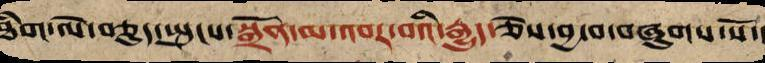ཐིག་ལེ་བཅུད་སྤུངས་སྒྲོན་མ་འབར་བའི་རྒྱུད་ཅེས་བྱ་བ་བཞུགས་སོ་།
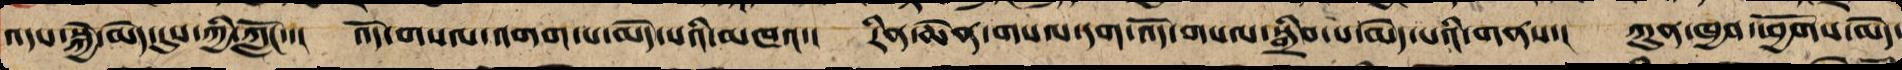འདས་སྐྱེ་མེད་དུས་ཀྱི་ཀློང་་། འོད་གསལ་འགག་པ་མེད་པའི་མཁའ་། རིན་ཆེན་གསལ་དག་འོད་གསལ་སྒྲིབ་པ་མེད་པའི་གནས་། ཀུན་ཁྱབ་ཕྱོགས་མེད་
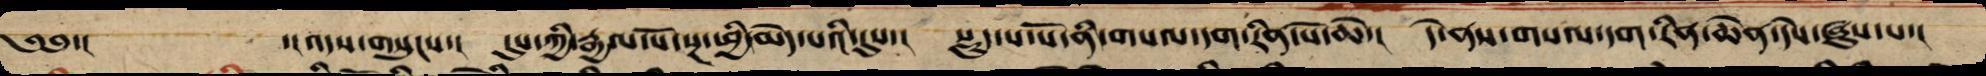༄༅་། ་།འདས་གསུངས་། དུས་ཀྱི་རྒྱལ་པོ་སྔ་ཕྱི་མེད་པའི་དུས་། སྡུད་པ་པོ་ནི་གསལ་དག་རིན་པོ་ཆེ་། དེ་ནས་གསལ་དག་རིན་ཆེན་དེས་ཞུས་པ་།
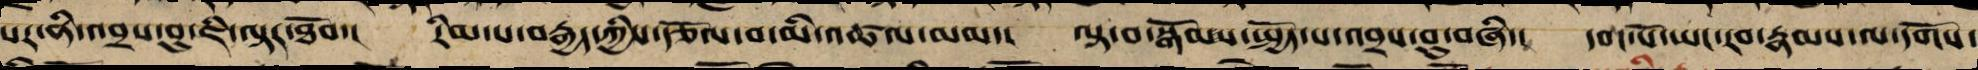པར་ནི་འབྲས་བུ་ཇི་ལྟར་ཐོབ་། རིམ་པ་བརྒྱད་ཀྱིས་རྩོལ་བ་མི་འཚལ་ལམ་། ལྟ་བ་སྒོམས་སྤྱོད་པ་འབྲས་བུ་བཞི་། དབང་པོ་ཡང་རབ་རྣམས་ལ་དགོས་
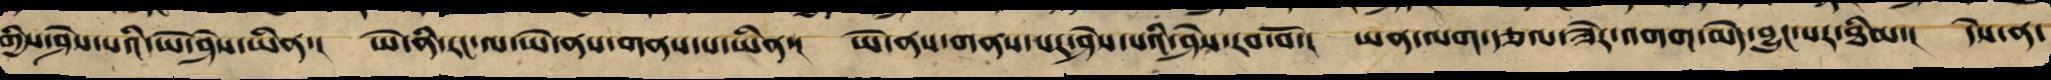གྱིས་ཤེས་པས་ཡེ་ཤེས་ཡིན་། ཡེ་ནི་རང་ལ་ཡེ་ནས་གནས་པ་ཡིན་། ཡེ་ནས་གནས་པར་ཤེས་པས་ཤེས་རབ་བོ་། ཡན་ལག་རྩལ་ཟེར་འགག་མེད་བྱུང་སར་ཐིམ་། དེས་ན་
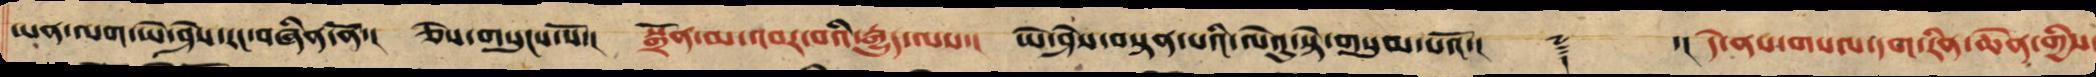ཡན་ལག་ཡེ་ཤེས་རང་བཞིན་ནོ་། ཅེས་གསུངས་སོ་། སྒྲོན་མ་འབར་བའི་རྒྱུད་ལས་། ཡེ་ཤེས་བསྟན་པའི་ལེའུ་སྟེ་གསུམ་པའོ་།། ༈ ་།། དེ་ནས་གསལ་དག་རིན་ཆེན་གྱིས་
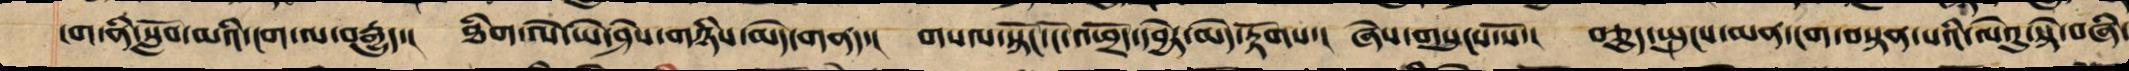ངག་ནི་སློབ་མའི་ངག་ལ་བརྒྱུད་། ཐིག་ལེ་ཡེ་ཤེས་གཉིས་མེད་གནད་། གསལ་སྟོང་ངོ་འཕྲོད་དབྱེར་མེད་རྟོགས་། ཞེས་གསུངས་སོ་། བཅུད་སྤུངས་མན་ངག་བསྟན་པའི་ལེའུ་སྟེ་བཞི་
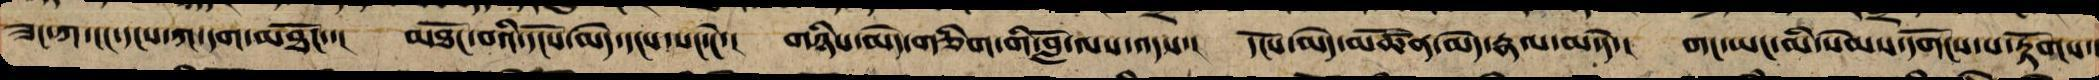ཟང་ཀ་ངང་དངས་ཀ་དག་མཐོང་་། མཐོང་བའི་དངོས་མེད་དངས་སང་ངེ་། གཉིས་མེད་གཅིག་གི་བློ་ལས་འདས་། དངོས་མེད་མཚོན་མེད་རྣལ་མ་དེ་། གང་ཡང་མི་སེམས་དགོངས་པ་རྟོགས་།
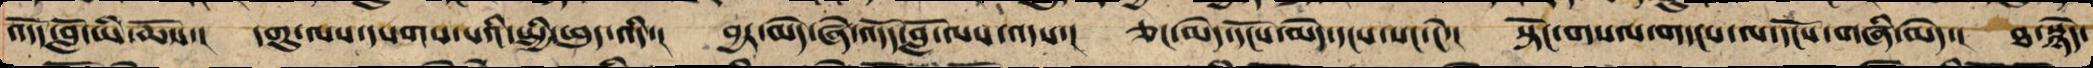འདོད་བློ་ཡི་ཆོས་། དགུ་ལས་དཔག་པའི་སྤྱི་ཕུད་འདི་། བྱར་མེད་ཞེ་འདོད་བློ་ལས་འདས་། ཅང་མེད་དངོས་མེད་དངས་སང་ངེ་། སྟོང་གསལ་གདངས་ལ་དངོས་གཞི་མེད་། ཐ་སྙེད་
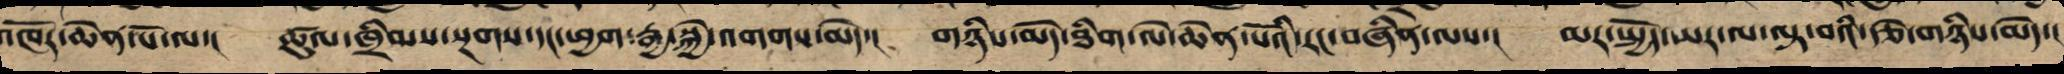འཁོར་ཆེན་པོ་ལ་། ཚུལ་ཁྲིམས་སྔགས་དང་ཕྱག་རྒྱ་སྐྱེ་འགག་མེད་། གཉིས་མེད་ཐིག་ལེ་ཆེན་པོའི་རང་བཞིན་ལས་། མར་སྤྱོད་ཡར་ལ་བལྟ་བའི་རྩེ་གཉིས་མེ་།
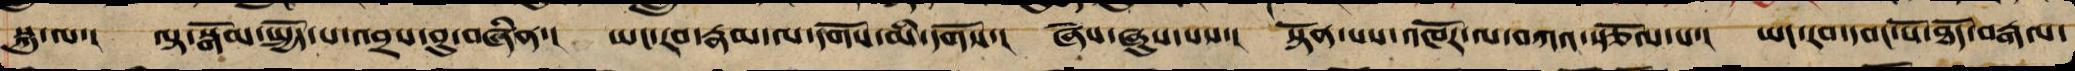སྐུ་ལ་། ལྟ་སྒོམ་སྤྱོད་པ་འབྲས་བུ་བཞིན་། ཡང་རབ་རྣམས་ལ་དགོས་མི་དགོས་། ཞེས་ཞུས་པས་། སྟོན་པས་འཁོར་ལ་བཀའ་སྩོལ་པ་། ཡང་རབ་དབང་པོ་ཐོད་བརྒལ་
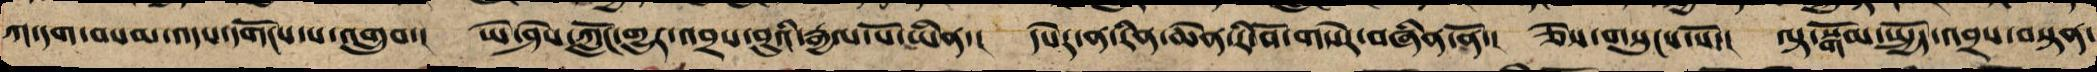ཀ་དག་བསམ་འདས་དགོངས་པ་འགྲུབ་། ཡེ་ཤེས་ཀློང་གྱུར་འབྲས་བུའི་རྒྱལ་པོ་ཡིན་། དཔེར་ན་རིན་ཆེན་རི་བོ་གསེར་བཞིན་ནོ་། ཅེས་གསུངས་སོ་། ལྟ་སྒོམ་སྤྱོད་འབྲས་བསྟན་
